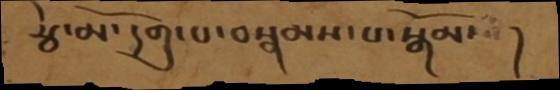རྩེ་མོ་དགུ་པ་བསྣམས་པ་སྒོམ་  །
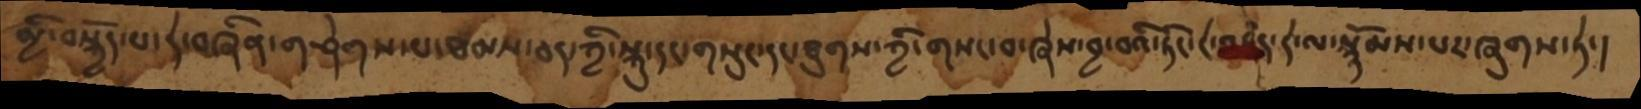མྱི་བསྐྱོད་པ་དེ་བཞིན་གཤེགས་པ་ཐམས་ཅད་ཀྱི་སྐུ་དང་གསུང་དང་ཐུགས་ཀྱི་གསང་བ་ཞེས་བྱ་བའི་ཏི་ངེ་འཛིན་དེ་ལ་སྙོམས་པར་ཞུགས་ཏེ་།
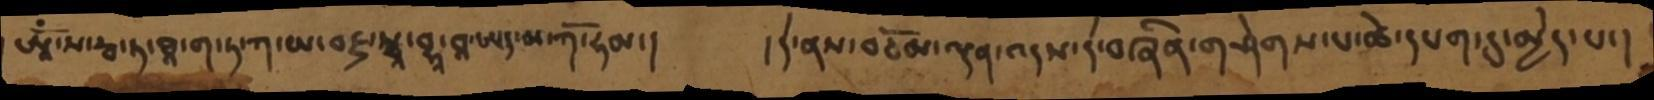ཨཱོཾ་ས་རྦ་ཏ་ཐཱ་ག་ཏ་ཀ་ཡ་བཛྲ་སྭཱ་བྷཱ་བཱ་ཨད་མ་ཀོ་ཧམ་།   ། དེ་ནས་བཅོམ་ལྡན་འདས་དེ་བཞིན་གཤེགས་པ་ཚེ་དཔག་དུ་མྱེད་པ་།
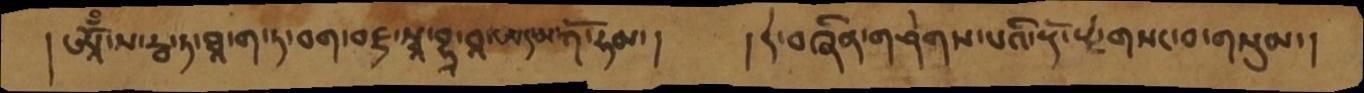། ཨཱོྃ་ས་རྦ་ཏ་ཐཱ་ག་ཏ་བག་བཛྲ་སྭཱ་བྷཱ་བཱ་ཨད་མ་ཀོ་ཧམ་།    །དེ་བཞིན་གཤེགས་པའི་རྡོ་རྗེ་གསང་བ་གསུམ་།
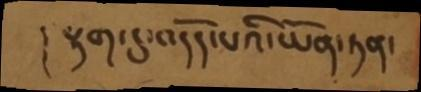།  རྟག་དུ་འདོད་པའི་ཡོན་ཏན་
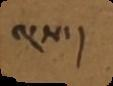ལྔས་།
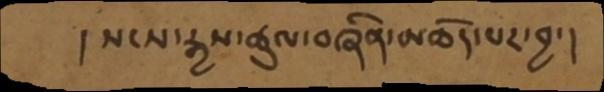།  སངས་རྒྱས་ཚུལ་བཞིན་མཆོད་པར་བྱ་།
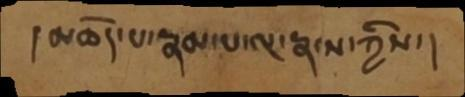། མཆོད་པ་རྣམ་པ་ལྔ་རྣམ་ཀྱིས་།
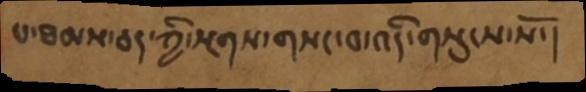པ་ཐམས་ཅད་ཀྱི་སྔགས་གསང་བ་འདི་གསུངས་སོ་།
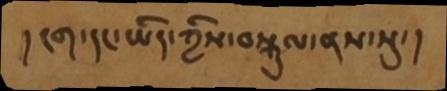།  ངག་དང་ཡིད་ཀྱིས་བསྐུལ་ནས་སུ་ །
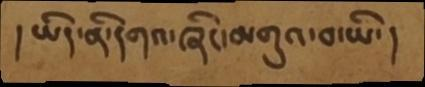།  ཡིད་ནི་དགའ་ཞིང་མགུའ་བ་ཡི་ །
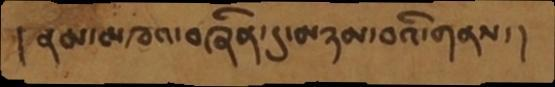།  ནམ་མཁའ་བཞིན་དུ་མཉམ་བའི་གནས་ །
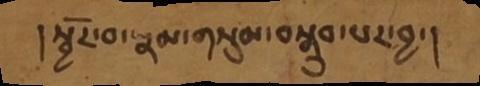། སྦྱོར་བ་རྣམ་གསུམ་བསྒྲུབ་པར་བྱ་ །
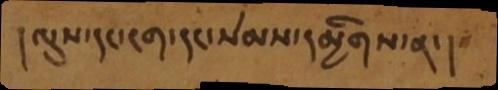། ལུས་དང་ངག་དང་སེམས་དམྱིགས་ན་།
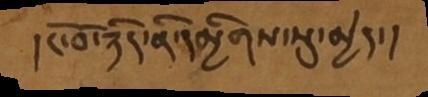། ངོ་བོ་ཉིད་ནི་དམྱིགད་སུ་མྱེད་།
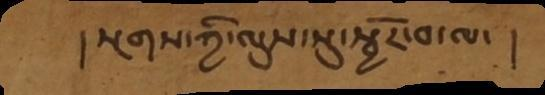། སྔགས་ཀྱི་ལུས་སུ་སྦྱོར་བ་ལ་ །
